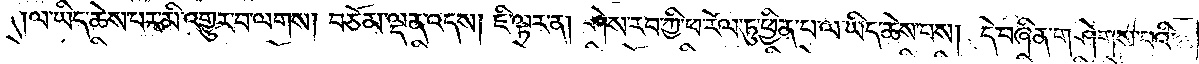ལ་ཡིད་ཆེས་པར་མི་འགྱུར་བ་ལགས། བཅོམ་ལྡན་འདས། ཇི་ལྟར་ན། ཤེས་རབ་ཀྱི་ཕ་རོལ་ཏུ་ཕྱིན་པ་ལ་ཡིད་ཆེས་པས། དེ་བཞིན་གཤེགས་པའི་
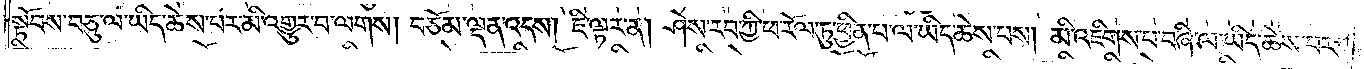སྟོབས་བཅུ་ལ་ཡིད་ཆེས་པར་མི་འགྱུར་བ་ལགས། བཅོམ་ལྡན་འདས། ཇི་ལྟར་ན། ཤེས་རབ་ཀྱི་ཕ་རོལ་ཏུ་ཕྱིན་པ་ལ་ཡིད་ཆེས་པས། མི་འཇིགས་པ་བཞི་ལ་ཡིད་ཆེས་པར་
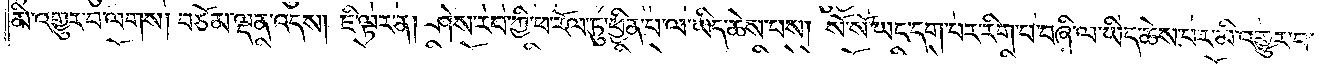མི་འགྱུར་བ་ལགས། བཅོམ་ལྡན་འདས། ཇི་ལྟར་ན། ཤེས་རབ་ཀྱི་ཕ་རོལ་ཏུ་ཕྱིན་པ་ལ་ཡིད་ཆེས་པས། སོ་སོ་ཡང་དག་པར་རིག་པ་བཞི་ལ་ཡིད་ཆེས་པར་མི་འགྱུར་བ་
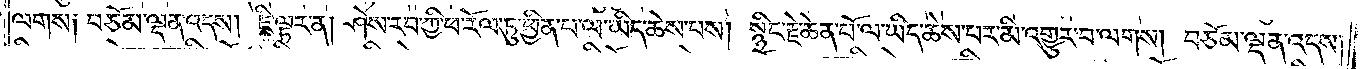ལགས༑ བཅོམ་ལྡན་འདས། ཇི་ལྟར་ན། ཤེས་རབ་ཀྱི་ཕ་རོལ་ཏུ་ཕྱིན་པ་ལ་ཡིད་ཆེས་པས། སྙིང་རྗེ་ཆེན་པོ་ལ་ཡིད་ཆེས་པར་མི་འགྱུར་བ་ལགས། བཅོམ་ལྡན་འདས།
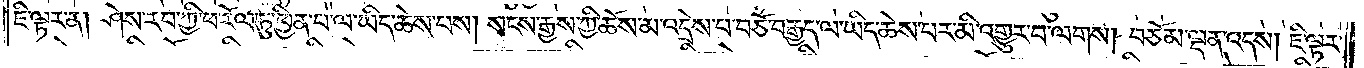ཇི་ལྟར་ན། ཤེས་རབ་ཀྱི་ཕ་རོལ་ཏུ་ཕྱིན་པ་ལ་ཡིད་ཆེས་པས། སངས་རྒྱས་ཀྱི་ཆོས་མ་འདྲེས་པ་བཅོ་བརྒྱད་ལ་ཡིད་ཆེས་པར་མི་འགྱུར་བ་ལགས། བཅོམ་ལྡན་འདས། ཇི་ལྟར་
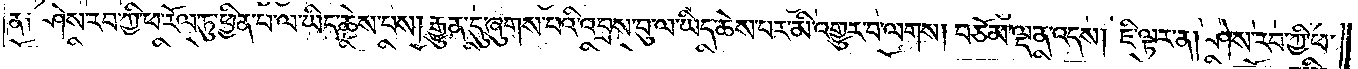ན༑ ཤེས་རབ་ཀྱི་ཕ་རོལ་ཏུ་ཕྱིན་ཕ་རོལ་ཏུ་ཕྱིན་པ་ལ་ཡིད་ཆེས་པས། རྒྱུན་དུ་ཞུགས་བའི་འབྲས་བུ་ལ་ཡིད་ཆེས་པར་མི་འགྱུར་བ་ལགས། བཅོམ་ལྡན་འདས། ཇི་ལྟར་ན། ཤེས་རབ་ཀྱི་ཕ་
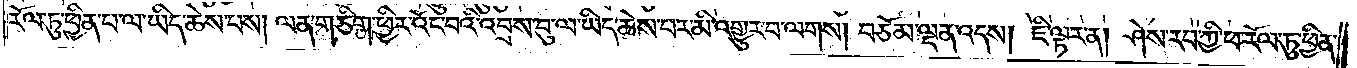རོལ་ཏུ་ཕྱིན་པ་ལ་ཡིད་ཆེས་པས། ལན་གཅིག་ཕྱིར་འོང་བའི་འབྲས་བུ་ལ་ཡིད་ཆེས་བར་མི་འགྱུར་བ་ལགས། བཅོམ་ལྡན་འདས། ཇི་ལྟར་ན། ཤེས་རབ་ཀྱི་ཕ་རོལ་ཏུ་ཕྱིན་
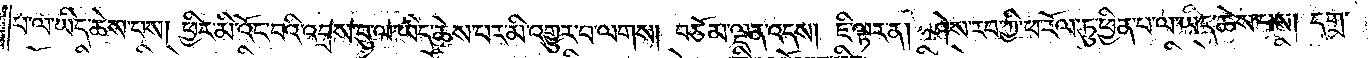པ་ལ་ཡིད་ཆེས་པས། ཕྱིར་མི་འོང་བའི་འབྲས་བུ་ལ་ཡིད་ཆེས་བར་མི་འགྱུར་བ་ལགས། བཅོམ་ལྡན་འདས། ཇི་ལྟར་ན། ཤེས་རབ་ཀྱི་ཕ་རོལ་ཏུ་ཕྱིན་པ་ལ་ཡིད་ཆེས་པས། དགྲ་
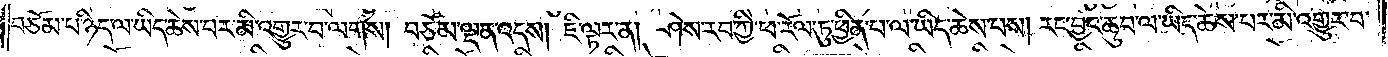བཅོམ་པ་ཉིད་ལ་ཡིད་ཆེས་པར་མི་འགྱུར་བ་ལགས། བཅོམ་ལྡན་འདས། ཇི་ལྟར་ན། ཤེས་རབ་ཀྱི་ཕ་རོལ་ཏུ་ཕྱིན་པ་ལ་ཡིད་ཆེས་པས། རང་བྱང་ཆུབ་ལ་ཡིད་ཆེས་པར་མི་འགྱུར་པ་
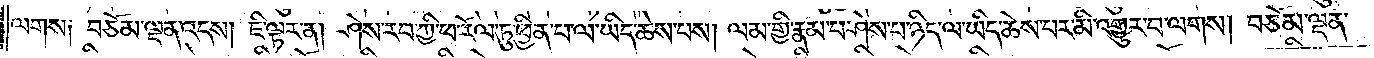ལགས༑ བཅོམ་ལྡན་འདས། ཇི་ལྟར་ན། ཤེས་རབ་ཀྱི་ཕ་རོལ་ཏུ་ཕྱིན་པ་ལ་ཡིད་ཆེས་པས། ལམ་གྱི་རྣམ་པ་ཤེས་པ་ཉིད་ལ་ཡིད་ཆེས་པར་མི་འགྱུར་བ་ལགས། བཅོམ་ལྡན་
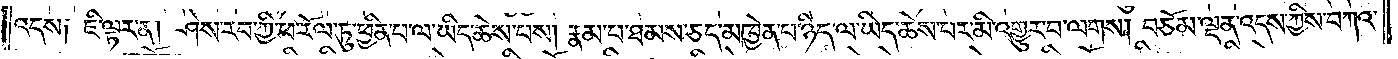འདས༑ ཇི་ལྟར་ན། ཤེས་རབ་ཀྱི་ཕ་རོལ་ཏུ་ཕྱིན་པ་ལ་ཡིད་ཆེས་པས། རྣམ་པ་ཐམས་ཅད་མཁྱེན་པ་ཉིད་ལ་ཡིད་ཆེས་པར་མི་འགྱུར་བ་ལགས། བཅོམ་ལྡན་འདས་ཀྱིས་བཀའ་
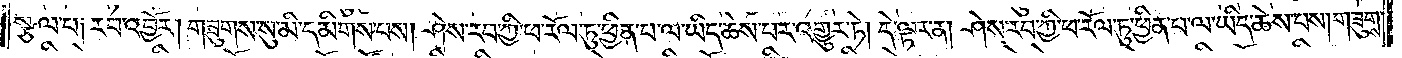སྩལ་པ༑ རབ་འབྱོར། གཟུགས་སུ་མི་དམིགས་པས། ཤེས་རབ་ཀྱི་ཕ་རོལ་ཏུ་ཕྱིན་པ་ལ་ཡིད་ཆེས་པར་འགྱུར་ཏེ། དེ་ལྟར་ན། ཤེས་རབ་ཀྱི་ཕ་རོལ་ཏུ་ཕྱིན་པ་ལ་ཡིད་ཆེས་པས། གཟུགས་
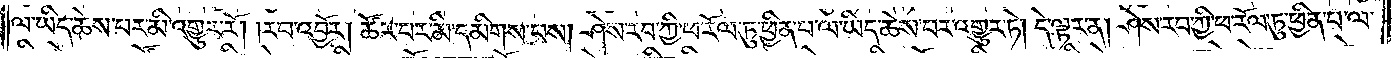ལ་ཡིད་ཆེས་པར་མི་འགྱུར་རོ། །རབ་འབྱོར། ཚོར་བར་མི་དམིགས་པས། ཤེས་རབ་ཀྱི་ཕ་རོལ་ཏུ་ཕྱིན་པ་ལ་ཡིད་ཆེས་པར་འགྱུར་ཏེ། དེ་ལྟར་ན། ཤེས་རབ་ཀྱི་ཕ་རོལ་ཏུ་ཕྱིན་པ་ལ་
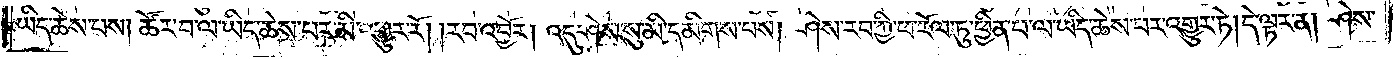ཡིད་ཆེས་པས། ཚོར་བ་ལ་ཡིད་ཆེས་པར་མི་འགྱུར་རོ། །རབ་འབྱོར། འདུ་ཤེས་སུ་མི་དམིགས་པས། ཤེས་རབ་ཀྱི་ཕ་རོལ་ཏུ་ཕྱིན་པ་ལ་ཡིད་ཆེས་པར་འགྱུར་ཏེ། དེ་ལྟར་ན། ཤེས་
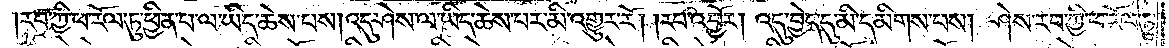རབ་ཀྱི་ཕ་རོལ་ཏུ་ཕྱིན་པ་ལ་ཡིད་ཆེས་པས། འདུ་ཤེས་ལ་ཡིད་ཆེས་པར་མི་འགྱུར་རོ། །རབ་འབྱོར། འདུ་བྱེད་དུ་མི་དམིགས་པས། ཤེས་རབ་ཀྱི་ཕ་རོལ་ཏུ་
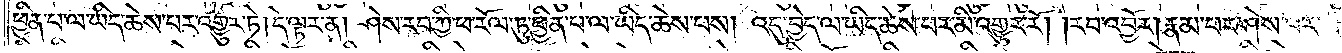ཕྱིན་པ་ལ་ཡིད་ཆེས་པར་འགྱུར་ཏེ། དེ་ལྟར་ན། ཤེས་རབ་ཀྱི་ཕ་རོལ་ཏུ་ཕྱིན་པ་ལ་ཡིད་ཆེས་པས། འདུ་བྱེད་ལ་ཡིད་ཆེས་པར་མི་འགྱུར་རོ། །རབ་འབྱོར། རྣམ་པར་ཤེས་པར་
